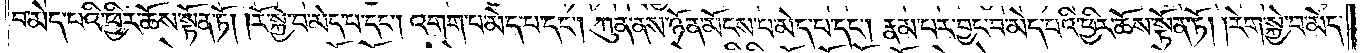བ་མེད་པའི་ཕྱིར་ཆོས་སྟོན་ཏོ། །རོ་སྐྱེ་བ་མེད་པ་དང༌། འགག་པ་མེད་པ་དང༌། ཀུན་ནས་ཉོན་མོངས་པ་མེད་པ་དང༌། རྣམ་པར་བྱང་བ་མེད་པའི་ཕྱིར་ཆོས་སྟོན་ཏོ། །རེག་སྐྱེ་བ་མེད་
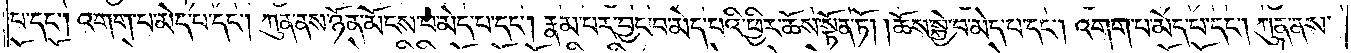པ་དང༌། འགག་པ་མེད་པ་དང༌། ཀུན་ནས་ཉོན་མོངས་པ་མེད་པ་དང༌། རྣམ་པར་བྱང་བ་མེད་པའི་ཕྱིར་ཆོས་སྟོན་ཏོ། །ཆོས་སྐྱེ་བ་མེད་པ་དང༌། འགག་པ་མེད་པ་དང༌། ཀུན་ནས་
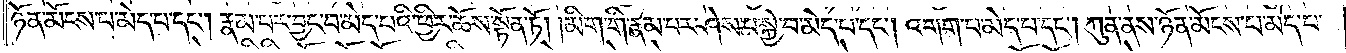ཉོན་མོངས་པ་མེད་པ་དང༌། རྣམ་པར་བྱང་བ་མེད་པའི་ཕྱིར་ཆོས་སྟོན་ཏོ། །མིག་གི་རྣམ་པར་ཤེས་པ་སྐྱེ་བ་མེད་པ་དང༌། འགག་པ་མེད་པ་དང༌། ཀུན་ནས་ཉོན་མོངས་པ་མེད་པ་
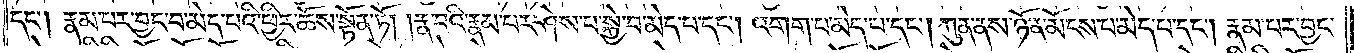དང༌། རྣམ་པར་བྱང་བ་མེད་པའི་ཕྱིར་ཆོས་སྟོན་ཏོ། །རྣ་བའི་རྣམ་པར་ཤེས་པ་སྐྱེ་བ་མེད་པ་དང༌། འགག་པ་མེད་པ་དང༌། ཀུན་ནས་ཉོན་མོངས་པ་མེད་པ་དང༌། རྣམ་པར་བྱང་
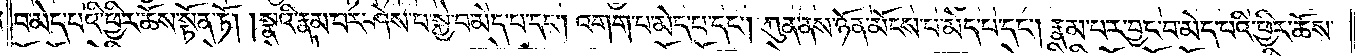བ་མེད་པའི་ཕྱིར་ཆོས་སྟོན་ཏོ། །སྣའི་རྣམ་པར་ཤེས་པ་སྐྱེ་བ་མེད་པ་དང༌། འགག་པ་མེད་པ་དང༌། ཀུན་ནས་ཉོན་མོངས་པ་མེད་པ་དང༌། རྣམ་པར་བྱང་བ་མེད་པའི་ཕྱིར་ཆོས་
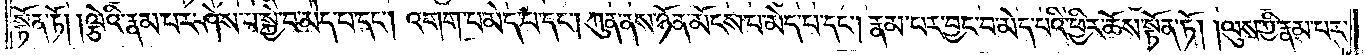སྟོན་ཏོ། །ལྕེའི་རྣམ་པར་ཤེས་པ་སྐྱེ་བ་མེད་པ་དང༌། འགག་པ་མེད་པ་དང༌། ཀུན་ནས་ཉོན་མོངས་པ་མེད་པ་དང༌། རྣམ་པར་བྱང་བ་མེད་པའི་ཕྱིར་ཆོས་སྟོན་ཏོ། །ལུས་ཀྱི་རྣམ་པར་
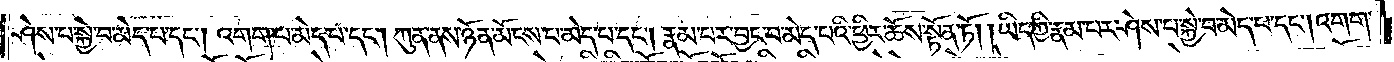ཤེས་པ་སྐྱེ་བ་མེད་པ་དང༌། འགག་པ་མེད་པ་དང༌། ཀུན་ནས་ཉོན་མོངས་པ་མེད་པ་དང༌། རྣམ་པར་བྱང་བ་མེད་པའི་ཕྱིར་ཆོས་སྟོན་ཏོ། །ཡིད་ཀྱི་རྣམ་པར་ཤེས་པ་སྐྱེ་བ་མེད་པ་དང༌། འགག་
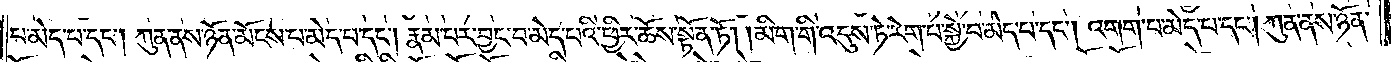པ་མེད་པ་དང༌། ཀུན་ནས་ཉོན་མོངས་པ་མེད་པ་དང༌། རྣམ་པར་བྱང་བ་མེད་པའི་ཕྱིར་ཆོས་སྟོན་ཏོ། །མིག་གི་འདུས་ཏེ་རེག་པ་སྐྱེ་བ་མེད་པ་དང༌། འགག་པ་མེད་པ་དང༌། ཀུན་ནས་ཉོན་
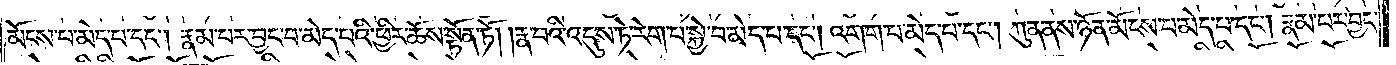མོངས་པ་མེད་པ་དང༌། རྣམ་པར་བྱང་བ་མེད་པའི་ཕྱིར་ཆོས་སྟོན་ཏོ། །རྣ་བའི་འདུས་ཏེ་རེག་པ་སྐྱེ་བ་མེད་པ་དང༌། འགག་པ་མེད་པ་དང༌། ཀུན་ནས་ཉོན་མོངས་པ་མེད་པ་དང༌། རྣམ་པར་བྱང་
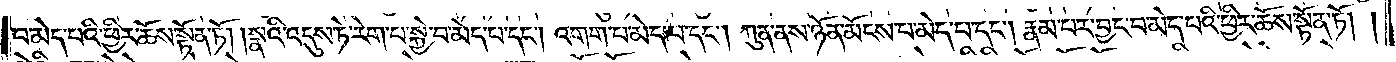བ་མེད་པའི་ཕྱིར་ཆོས་སྟོན་ཏོ། །སྣའི་འདུས་ཏེ་རེག་པ་སྐྱེ་བ་མེད་པ་དང༌། འགག་པ་མེད་པ་དང༌། ཀུན་ནས་ཉོན་མོངས་པ་མེད་པ་དང༌། རྣམ་པར་བྱང་བ་མེད་པའི་ཕྱིར་ཆོས་སྟོན་ཏོ། །
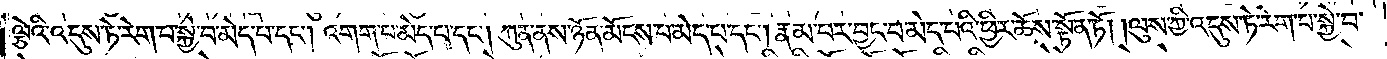ལྕེའི་འདུས་ཏེ་རེག་པ་སྐྱེ་བ་མེད་པ་དང༌། འགག་པ་མེད་པ་དང༌། ཀུན་ནས་ཉོན་མོངས་པ་མེད་པ་དང༌། རྣམ་པར་བྱང་བ་མེད་པའི་ཕྱིར་ཆོས་སྟོན་ཏོ། །ལུས་ཀྱི་འདུས་ཏེ་རེག་པ་སྐྱེ་བ་
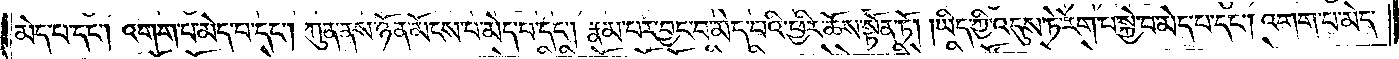མེད་པ་དང༌། འགག་པ་མེད་པ་དང༌། ཀུན་ནས་ཉོན་མོངས་པ་མེད་པ་དང༌། རྣམ་པར་བྱང་བ་མེད་པའི་ཕྱིར་ཆོས་སྟོན་ཏོ། །ཡིད་ཀྱི་འདུས་ཏེ་རེག་པ་སྐྱེ་བ་མེད་པ་དང༌། འགག་པ་མེད་
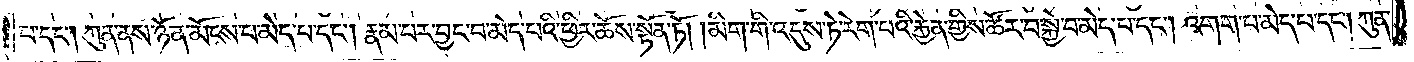པ་དང༌། ཀུན་ནས་ཉོན་མོངས་པ་མེད་པ་དང༌། རྣམ་པར་བྱང་བ་མེད་པའི་ཕྱིར་ཆོས་སྟོན་ཏོ། །མིག་གི་འདུས་ཏེ་རེག་པ་སྐྱེ་བ་མེད་པ་དང༌། འགག་པ་མེད་པ་དང༌། །ཀུན་
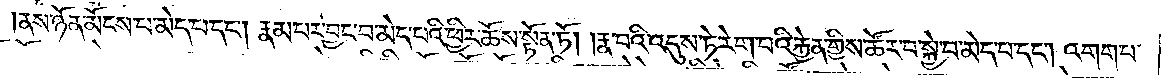ནས་ཉོན་མོངས་པ་མེད་པ་དང༌། རྣམ་པར་བྱང་བ་མེད་པའི་ཕྱིར་ཆོས་སྟོན་ཏོ། །རྣ་བའི་འདུས་ཏེ་རེག་པའི་རྐྱེན་གྱིས་ཚོར་བ་སྐྱེ་བ་མེད་པ་དང༌། འགག་པ་
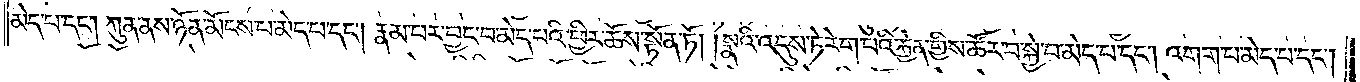མེད་པ་དང༌། ཀུན་ནས་ཉོན་མོངས་པ་མེད་པ་དང༌། རྣམ་པར་བྱང་བ་མེད་པའི་ཕྱིར་ཆོས་སྟོན་ཏོ། །སྣའི་འདུས་ཏེ་རེག་པའི་རྐྱེན་གྱིས་ཚོར་བ་སྐྱེ་བ་མེད་པ་དང༌། འགག་པ་མེད་པ་དང༌།
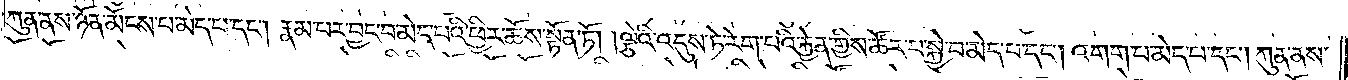ཀུན་ནས་ཉོན་མོངས་པ་མེད་པ་དང༌། རྣམ་པར་བྱང་བ་མེད་པའི་ཕྱིར་ཆོས་སྟོན་ཏོ། །ལྕེའི་འདུས་ཏེ་རེག་པའི་རྐྱེན་གྱིས་ཚོར་བ་སྐྱེ་བ་མེད་པ་དང༌། འགག་པ་མེད་པ་དང༌། ཀུན་ནས་
